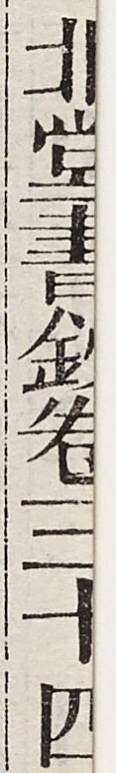北堂書鈔卷三十四
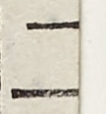二
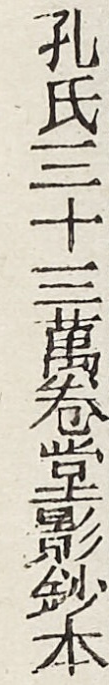孔氏三十三萬卷堂影鈔本
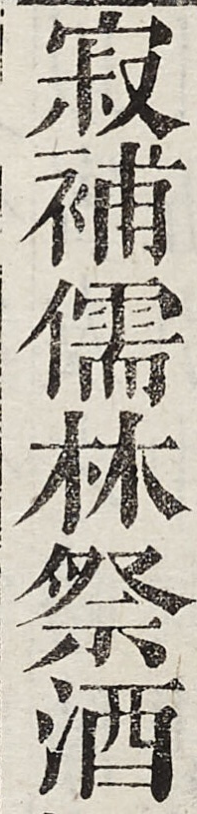寂補儒林祭酒
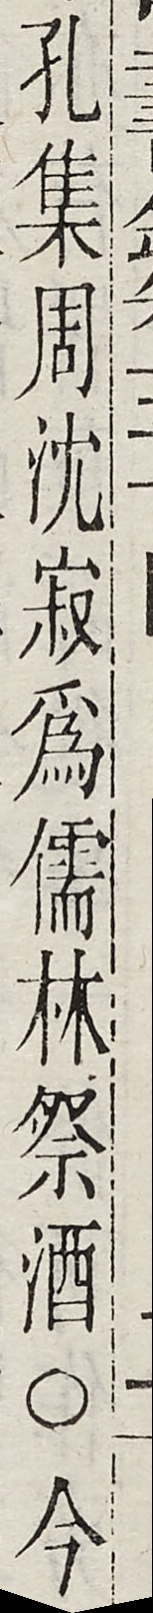孔集周沈寂為儒林祭酒○今
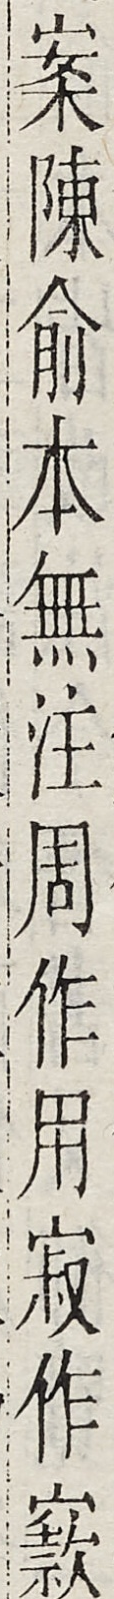案陳俞本無注周作用寂作竅
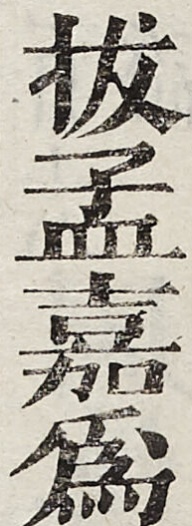拔孟嘉為
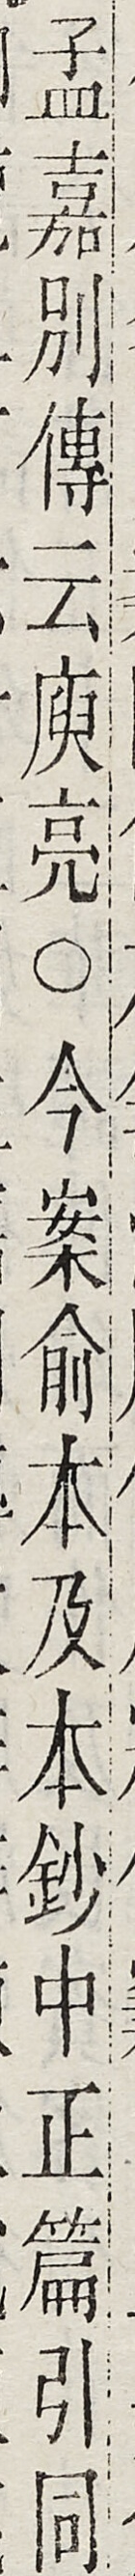孟嘉刖傳云庾亮○今案俞本及本鈔中正篇引同
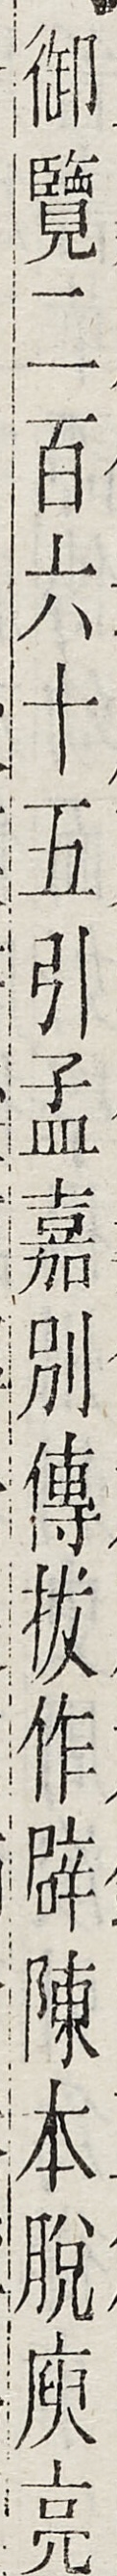御覽二百六十五引孟嘉別傳拔作□陳本脫庾亮
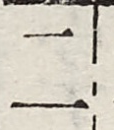二
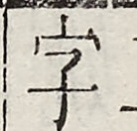字
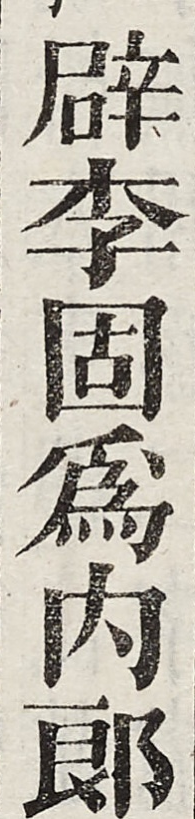闢李固為內郎
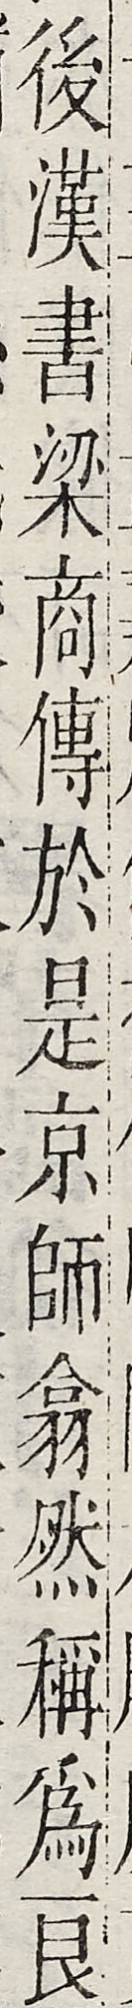後漢書梁商傳於是京師翕然稱為良
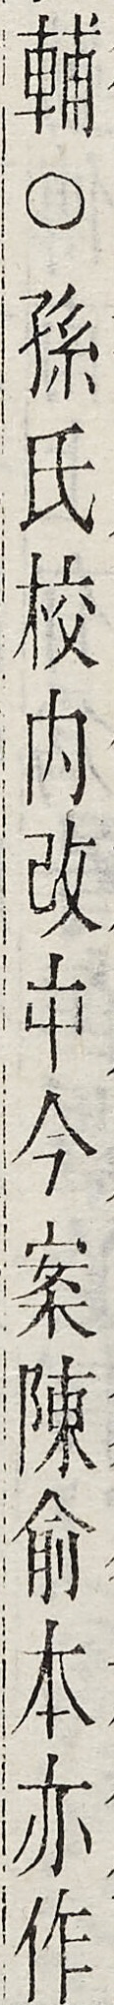輔○孫氏校內改中今案陳俞本亦作
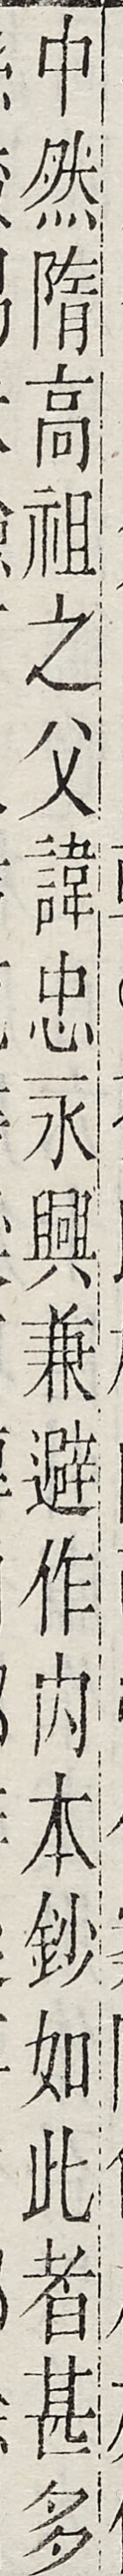中然隋高祖之父諱忠永興兼避作內本鈔如此者甚多
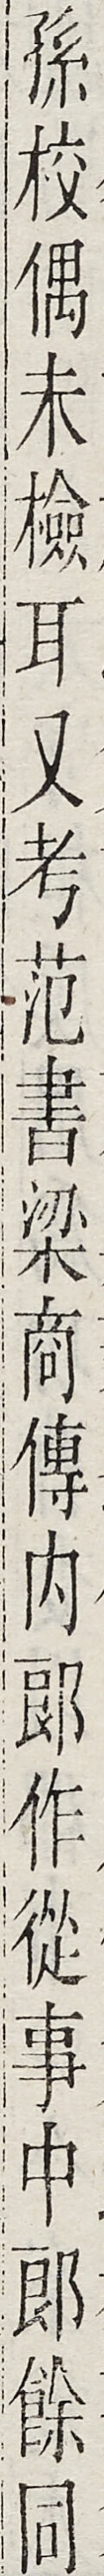孫校偶未檢耳又考範書梁商傳內郎作是事中郎餘同
